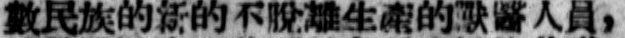數民族的新的不脫離生產的獸醫人員，
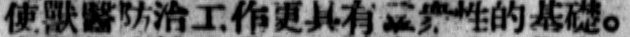使獸醫防治工作更具有羣衆性的基礎。
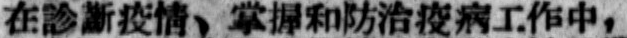在診斷疫情、掌握和防治疫病工作中，
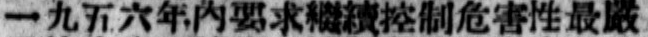一九五六年內要求繼續控制危害性最嚴
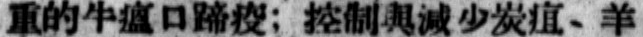重的牛瘟口蹄疫；控制與減少炭疽、羊
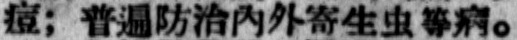痘；普遍防治內外寄生蟲等病。
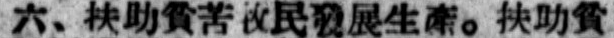六、扶助貧苦牧民發展生產。扶助貧
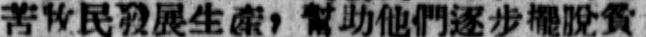苦牧民發展生產，幫助他們逐步擺脫貧
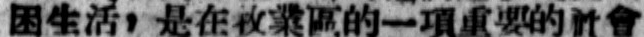困生活，是在牧業區的一項重要的社會
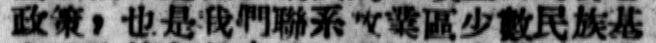政策，也是我們聯繫牧業區少數民族基
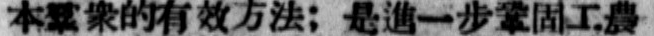本羣衆的有效方法；是進一步鞏固工農
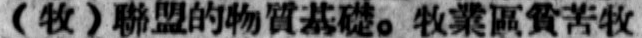（牧）聯盟的物質基礎。牧業區貧困牧
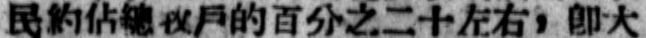民約佔總牧戶的百分之二十左右，卽大
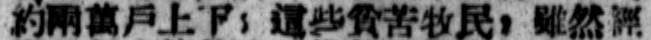約兩萬戶上下，這些貧苦牧民，雖然經
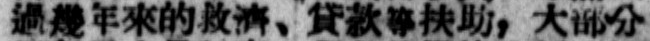過幾年來的救濟、貸款等扶助，大部分
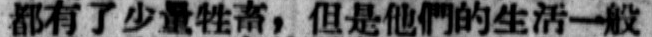都有了少量牲畜，但是他們的生活一般
